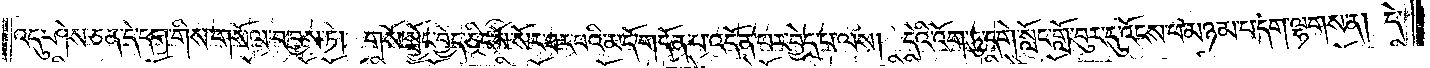འདུ་ཤེས་ཅན་དེ་དག་གིས་གསོལ་བ་བྱས་ཏེ། གསོ་སྦྱོང་བྱེད་ཅིང་སོ་སོར་ཐར་པའི་མདོ་གདོན་པ་འདོན་པར་བྱེད་པ་ལས། དེའི་འོག་ཏུ་དགེ་སློང་གློ་བུར་དུ་འོངས་པ་མཉམ་པ་དག་ལྷགས་ན། དེ་
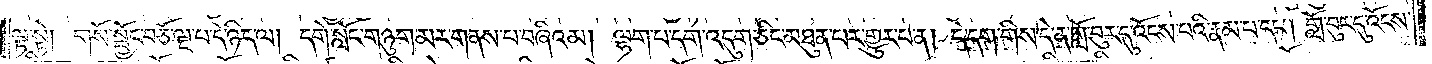ལྟ་སྟེ། གསོ་སྦྱོང་བཅོ་ལྔ་པ་དེ་ཉིད་ལ། དགེ་སློང་གཉུག་མར་གནས་པ་བཞིའམ། ལྷག་པ་དག་འདུག་ཅིང་མཐུན་པར་གྱུར་པ་ན། དེ་དག་གིས་དེ་ན་གློ་བུར་དུ་འོངས་པའི་རྣམ་པ་དང༌། གློ་བུར་དུ་འོངས་
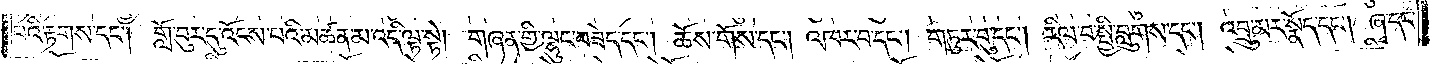པའི་རྟགས་དང༌། གློ་བུར་དུ་འོངས་པའི་མཚན་མ་འདི་ལྟ་སྟེ། གཞན་གྱི་ལྷུང་བཟེད་དང༌། ཆོས་གོས་དང༌། འཁར་བ་དང༌། གཏུར་བུ་དང༌། རིལ་བ་སྤྱི་བླུགས་དང༌། འབྲུ་མར་སྣོད་དང༌། ཞྭ་དང་
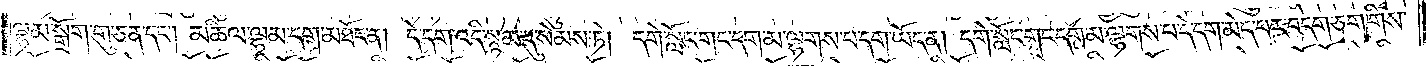ལྷམ་སྒྲོག་གུ་ཅན་དང༌། མཆིལ་ལྷམ་དག་མཐོང་ན། དེ་དག་འདི་སྙམ་དུ་སེམས་ཏེ། དགེ་སློང་གང་དག་མ་ལྷགས་པ་དག་ཡོད་ན། དགེ་སློང་གང་དག་མ་ལྷགས་པ་དེ་དག་མེད་པར་བདག་ཅག་གིས་
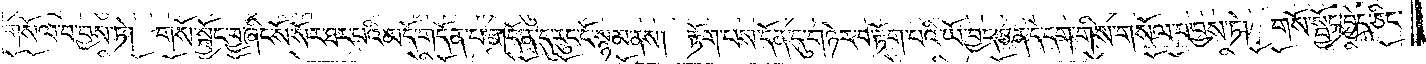གསོལ་བ་བྱས་ཏེ། གསོ་སྦྱོང་བྱ་ཞིང་སོ་སོར་ཐར་པའི་མདོ་གདོན་པ་གདོན་དུ་རུང་ངོ་སྙམ་ནས། རྟོག་པས་དོན་དུ་གཉེར་བ་རྟོག་པའི་ཡོ་བྱད་ཅན་དེ་དག་གིས་གསོལ་བ་བྱས་ཏེ། གསོ་སྦྱོང་བྱེད་ཅིང་
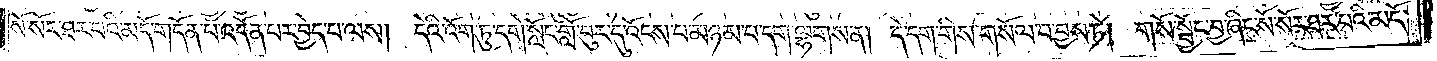སོ་སོར་ཐར་པའི་མདོ་གདོན་པ་འདོན་པར་བྱེད་པ་ལས། དེའི་འོག་ཏུ་དགེ་སློང་གློ་བུར་དུ་འོངས་པ་མཉམ་པ་དག་ལྷགས་ན། དེ་དག་གིས་གསོལ་བ་བྱས་ཏེ། གསོ་སྦྱོང་བྱ་ཞིང་སོ་སོར་ཐར་པའི་མདོ་
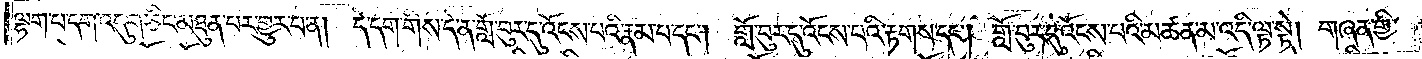ལྷག་པ་དག་འདུག་ཅིང་མཐུན་པར་གྱུར་པ་ན། དེ་དག་གིས་དེ་ན་གློ་བུར་དུ་འོངས་པའི་རྣམ་པ་དང༌། གློ་བུར་དུ་འོངས་པའི་རྟགས་དང༌། གློ་བུར་དུ་འོངས་པའི་མཚན་མ་འདི་ལྟ་སྟེ། གཞན་གྱི་
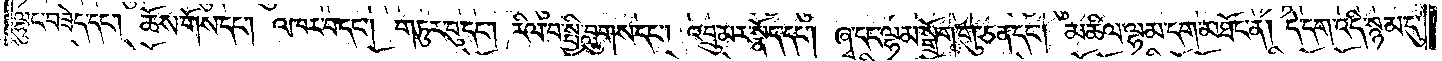ལྷུང་བཟེད་དང༌། ཆོས་གོས་དང༌། འཁར་བ་དང༌། གཏུར་བུ་དང༌། རིལ་བ་སྤྱི་བླུགས་དང༌། འབྲུ་མར་སྣོད་དང༌། ཞྭ་དང་ལྷམ་སྒྲོག་གུ་ཅན་དང༌། མཆིལ་ལྷམ་དག་མཐོང་ན། དེ་དག་འདི་སྙམ་དུ་
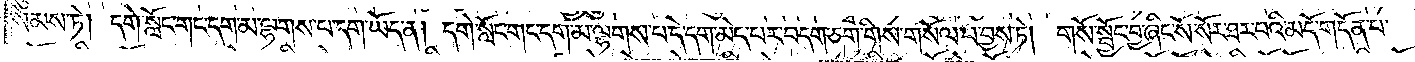སེམས་ཏེ། དགེ་སློང་གང་དག་མ་ལྷགས་པ་དག་ཡོད་ན། དགེ་སློང་གང་དག་མ་ལྷགས་པ་དེ་དག་མེད་པར་བདག་ཅག་གིས་གསོལ་བ་བྱས་ཏེ། གསོ་སྦྱོང་བྱ་ཞིང་སོ་སོར་ཐར་པའི་མདོ་གདོན་པ་
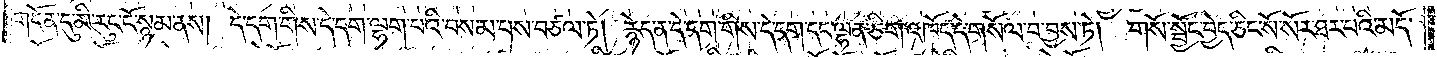གདོན་དུ་མི་རུང་ངོ་སྙམ་ནས། དེ་དག་གིས་དེ་དག་ལྷག་པའི་བསམ་པས་བཙལ་ཏེ། རྙེད་ན་དེ་དག་གིས་དེ་དག་དང་ལྷན་ཅིག་འཁོད་དེ་གསོལ་བ་བྱས་ཏེ། གསོ་སྦྱོང་བྱེད་ཅིང་སོ་སོར་ཐར་པའི་མདོ་
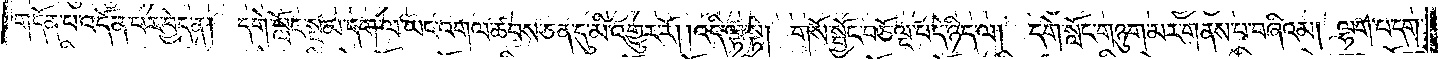གདོན་པ་འདོན་པར་བྱེད་ན། དགེ་སློང་སྔ་མ་དག་ལ་ཡང་འགལ་ཚབས་ཅན་དུ་མི་འགྱུར་རོ། །འདི་ལྟ་སྟེ། གསོ་སྦྱོང་བཅོ་ལྔ་པ་དེ་ཉིད་ལ། དགེ་སློང་གཉུག་མར་གནས་པ་བཞིའམ། ལྷག་པ་དག་
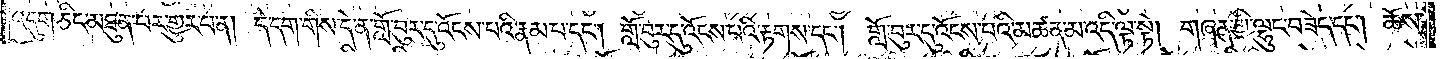འདུག་ཅིང་མཐུན་པར་གྱུར་པ་ན། དེ་དག་གིས་དེ་ན་གློ་བུར་དུ་འོངས་པའི་རྣམ་པ་དང༌། གློ་བུར་དུ་འོངས་པའི་རྟགས་དང༌། གློ་བུར་དུ་འོངས་པའི་མཚན་མ་འདི་ལྟ་སྟེ། གཞན་གྱི་ལྷུང་བཟེད་དང༌། ཆོས་
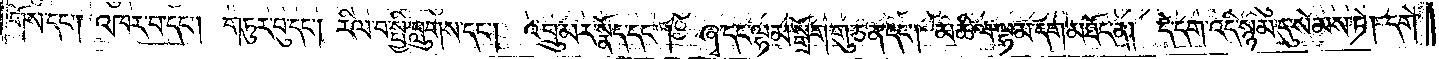གོས་དང༌། འཁར་བ་དང༌། གཏུར་བུ་དང༌། རིལ་བ་སྤྱི་བླུགས་དང༌། འབྲུ་མར་སྣོད་དང༌། ཞྭ་དང་ལྷམ་སྒྲོག་གུ་ཅན་དང༌། མཆིལ་ལྷམ་དག་མཐོང་ན། དེ་དག་འདི་སྙམ་དུ་སེམས་ཏེ། དགེ་
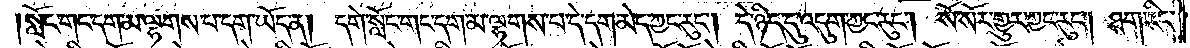སློང་གང་དག་མ་ལྷགས་པ་དག་ཡོད་ན། དགེ་སློང་གང་དག་མ་ལྷགས་པ་དེ་དག་མེད་ཀྱང་རུང༌། དེ་ཉིད་དུ་འདུག་ཀྱང་རུང༌། སོ་སོར་གྱུར་ཀྱང་རུང༌། ཐག་རིང་
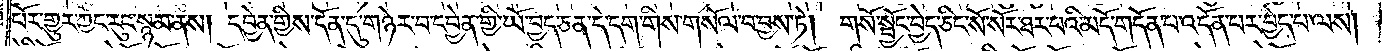པོར་གྱུར་ཀྱང་རུང་སྙམ་ནས། དབྱེན་གྱིས་དོན་དུ་གཉེར་བ་དབྱེན་གྱི་ཡོ་བྱད་ཅན་དེ་དག་གིས་གསོལ་བ་བྱས་ཏེ། གསོ་སྦྱོང་བྱེད་ཅིང་སོ་སོར་ཐར་པའི་མདོ་གདོན་པ་འདོན་པར་བྱེད་པ་ལས།
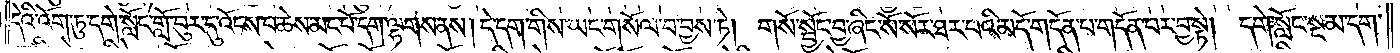དེའི་འོག་ཏུ་དགེ་སློང་གློ་བུར་དུ་འོངས་པ་ཆེས་མང་པོ་དག་ལྷགས་ནས། དེ་དག་གིས་ཡང་གསོལ་བ་བྱས་ཏེ། གསོ་སྦྱོང་བྱ་ཞིང་སོ་སོར་ཐར་པའི་མདོ་གདོན་པ་གདོན་པར་བྱ་སྟེ། དགེ་སློང་སྔ་མ་དག་
